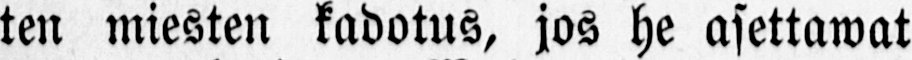ten miesten kadotus, jos he asettawat
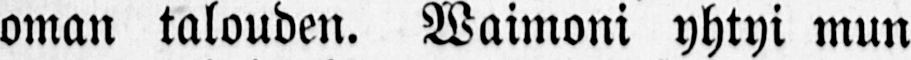oman talouden. Waimoni yhtyi mun
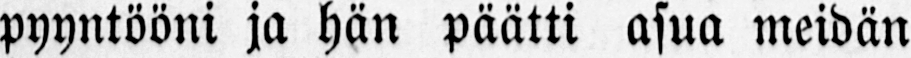pyyntööni ja hän päätti asua meidän
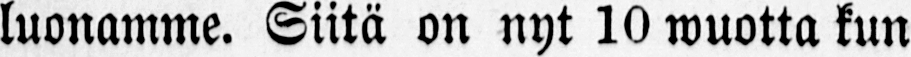luonamme. Siitä on nyt 10 wuotta kun
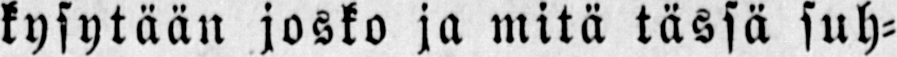kysytään josko ja mitä tässä suh-
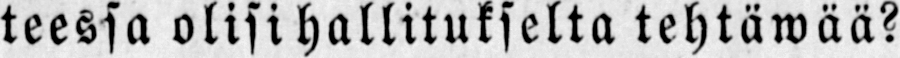teessa olisi hallitukselta tehtäwää?
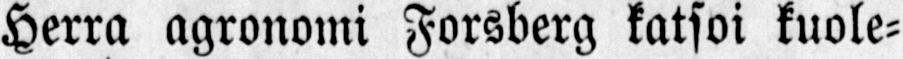Herra agronomi Forsberg katsoi kuole-
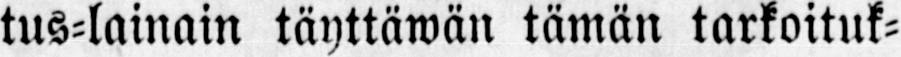tus-lainain täyttäwän tämän tarkoituk-
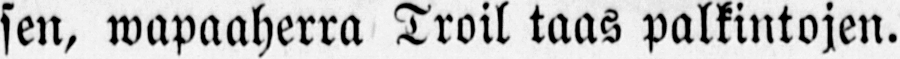sen, wapaaherra Troil taas palkintojen.
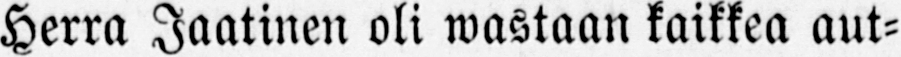Herra Jaatinen oli wastaan kaikkea aut-
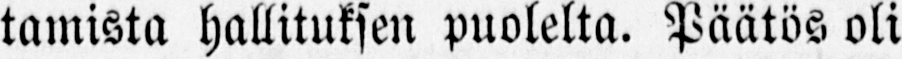tamista hallituksen puolelta. Päätös oli
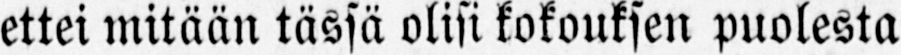ettei mitään tässä olisi kokouksen puolesta
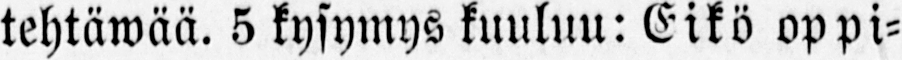tehtäwää. 5 kysymys kuulun: Eikö oppi-
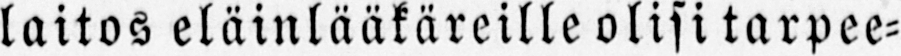laitos eläinlääkäreille olisi tarpee-
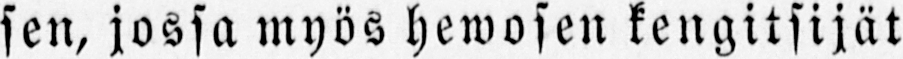sen, jossa myös hewosen kengitsijät
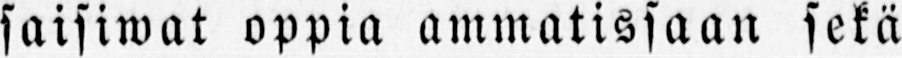saisiwat oppia ammatissaan sekä
